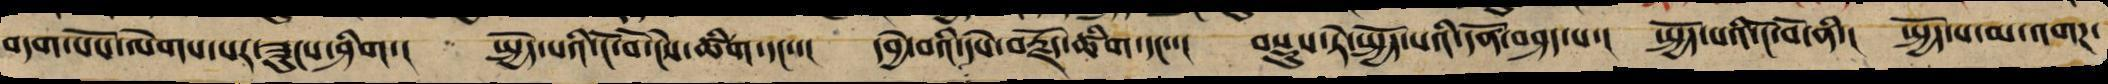བདག་པོ་ལེགས་པར་ཟུངས་ཤིག། སྤྱོད་པའི་ངོ་བོ་ངེས་ཚིག་དང་་། དབྱེ་བ་མཐུན་དཔེ་བརྗོད་ཚིག་དང་་། བསྡུས་ཏེ་བརྗོད་པའི་དོན་བཤད་པ་། སྤྱོད་པའི་ངོ་བོ་ནི་། སྤྱོད་པ་མ་འགཌ་
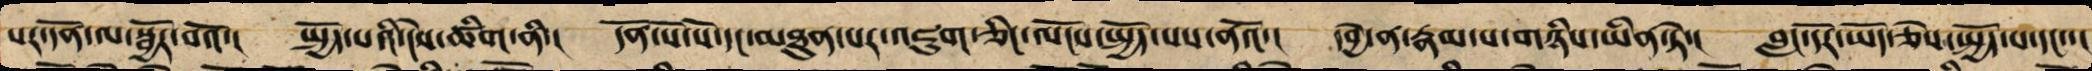སར་དོན་ལ་སྦྱོར་བའོ་། སྤྱོད་པའི་ངེས་ཚིག་ནི་། དོན་སོ་སོ་དང་མཐུན་པར་འཇུག་ཅིང་ལོངས་སྤྱོད་པས་ནའོ་། དབྱེ་ན་རྣམ་པ་གཉིས་ཡིན་ཏེ་། བླང་དོར་ཡོད་ཅེས་སྤྱོད་པ་དང་་།
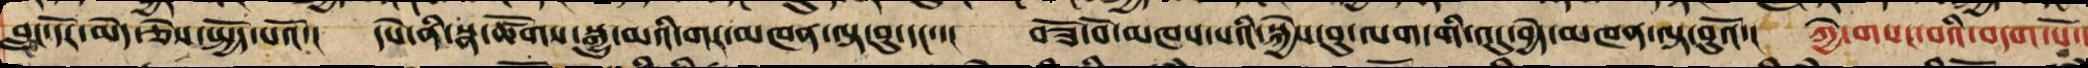བླང་དོར་མེད་ཅེས་སྤྱོད་པའོ་། དཔེ་ནི་སྣ་ཚོགས་སྒྱུ་མའི་གར་མཁན་ལྟ་བུ་དང་་། བཟོ་བོ་མཁས་པའི་སྐྱེས་བུ་ལག་གི་འདུ་བྱེད་མཁན་ལྟ་བུའོ་། ཀྱེ་གསང་བའི་བདག་པོ་།
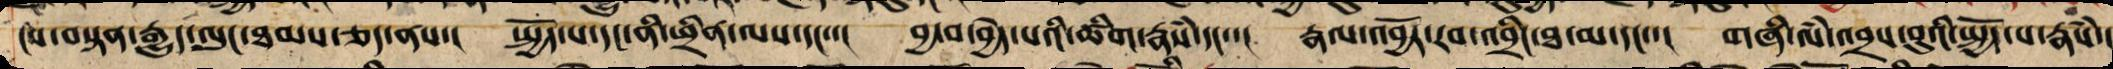ངས་བསྟན་རྒྱུད་ལུང་ཐམས་ཅད་ནས་། སྤྱོད་པ་དང་ནི་ཕྲིན་ལས་དང་་། བྱ་བ་བྱེད་པའི་ཚིག་རྣཾས་དང་་། རྣལ་འབྱོར་རབ་འབྲིང་ཐ་མ་དང་་། གཞི་ལཾ་འབྲས་བུའི་སྤྱོད་པ་རྣཾས་།
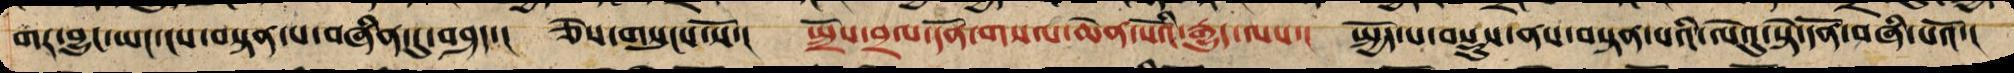གང་བྱུང་ཡང་ངས་བསྟན་པ་བཞིན་དུ་སྤྱོད་། ཅེས་གསུངས་སོ་། སྤྲོས་བྲལ་དོན་གསལ་ཆེན་པོའི་རྒྱུད་ལས་། སྤྱོད་པ་བསྡུས་ནས་བསྟན་པའི་ལེའུ་སྟེ་དོན་བཞི་པའོ་།།
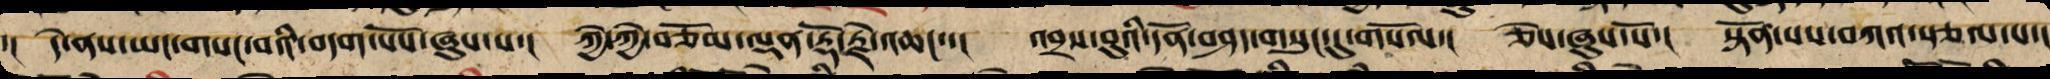་།། དེ་ནས་ཡང་གསང་བའི་བདག་པོས་ཞུས་པ་། ཀྱེ་ཀྱེ་བཅོམ་ལྡན་རྡོ་རྗེ་འཆང་་། འབྲས་བུའི་དོན་བཤད་གསུང་དུ་གསོལ་། ཅེས་ཞུས་སོ་། སྟོན་པས་བཀའ་སྩལ་པ་།
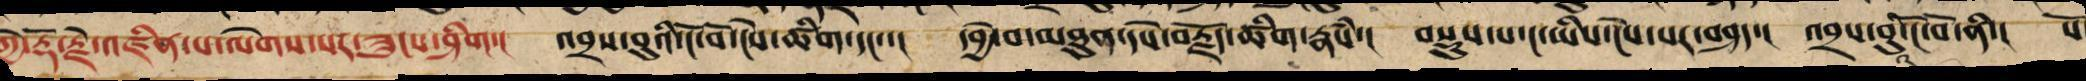ཀྱེ་རྡོ་རྗེ་འཛིན་པ་ལེགས་པར་ཟུངས་ཤིག། འབྲས་བུའི་ངོ་བོ་ངེས་ཚིག་དང་་། དབྱེ་བ་མཐུན་དཔེ་བརྗོད་ཚིག་རྣཾས་། བསྡུས་པ་ང་ཡིས་ངེས་པར་བཤད་། འབྲས་བུ་ངོ་བོ་ནི་། སོ
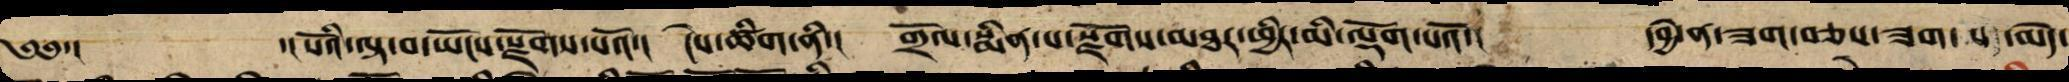༄༅་།  ་།སོའི་ལྟ་བ་ཡོངས་སུ་སྫོགས་པའོ་། ངེས་ཚིག་ནི་། གྲོལ་སྨིན་སྫོགས་མཐར་ཕྱིན་ཕྱིར་མི་ལྡོག་པའོ་། དབྱེ་ན་ཟག་བཅས་ཟག་པ་མེད་
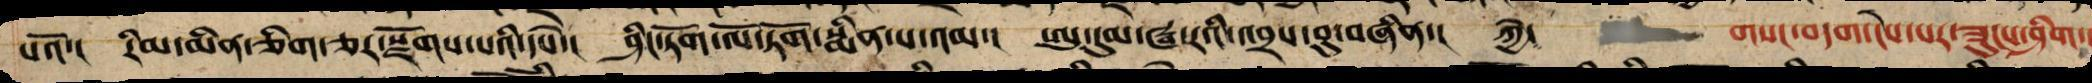པའོ་། རིམ་མིན་གཅིག་ཆར་སྫོགས་པའི་དཔེ་། ཤིང་ཏོག་ལོ་ཏོག་སྨིན་པ་འམ་། ཨུ་དུམ་ཝ་རའི་འབྲས་བུ་བཞིན་། ཀྱེ་   གསང་བདག་ངེས་པར་ཟུང་ཤིག་།
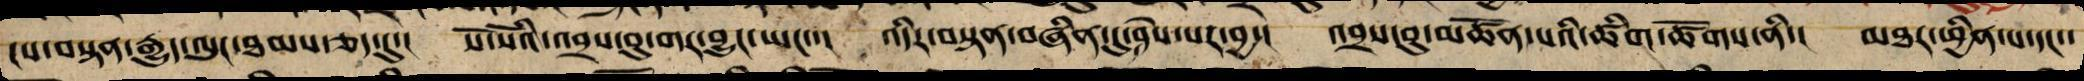ངས་བསྟན་རྒྱུད་ལུང་ཐམས་ཅད་དུ་། སོ་སོའི་འབྲས་བུ་གང་བྱུང་ཡང་་། འདིར་བསྟན་བཞིན་དུ་ཤེས་པར་བྱ་། འབྲས་བུ་མཚོན་པའི་ཚིག་ཚོགས་ནི་། མཐར་ཕྱིན་པ་དང་་
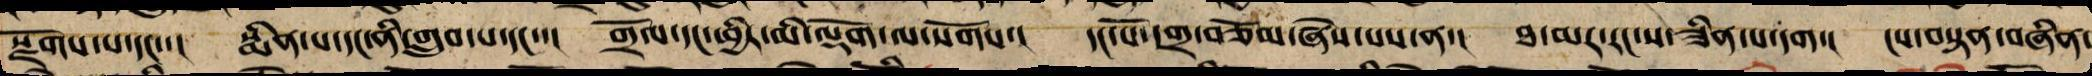སྫོགས་པ་དང་་། སྨིན་པ་དང་ནི་གྲུབ་པ་དང་་། གྲོལ་དང་ཕྱིར་མི་ལྡོག་ལ་སོགས་། དང་པོ་དགྲ་བཅོམ་ཞེས་པ་ནས་། ཐ་མ་རང་ས་ཟིན་པ་དག། ངས་བསྟན་བཞིན་
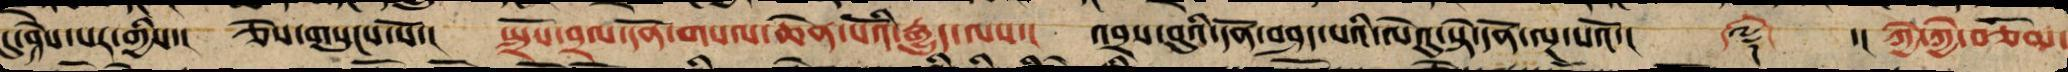དུ་ཤེས་པར་གྱིས་། ཅེས་གསུངས་སོ་། སྤྲོས་བྲལ་དོན་གསལ་ཆེན་པོའི་རྒྱུད་ལས་། འབྲས་བུའི་དོན་བཤད་པའི་ལེའུ་སྟེ་དོན་ལྔ་པའོ་།། ༈ ་།། ཀྱེ་ཀྱེ་བཅོམ་
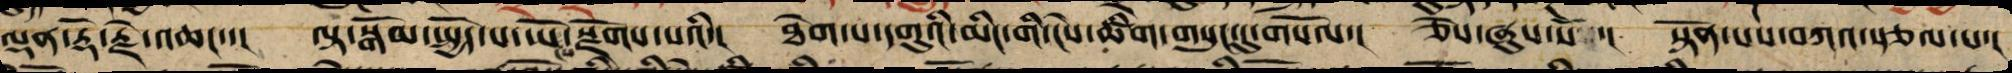ལྡན་རྡོ་རྗེ་འཆང་་། ལྟ་སྒོམ་སྤྱོད་པ་ཡོངས་སྫོགས་པའི་། ཐེག་པ་དགུ་ཡི་མིང་གི་ངེས་ཚིག་གསུང་དུ་གསོལ་། ཅེས་ཞུས་སོ་། སྟོན་པས་བཀའ་སྩལ་པ་།
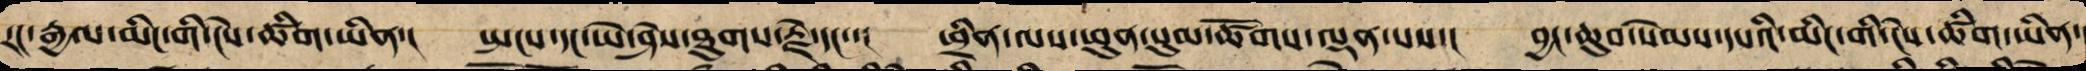རང་རྒྱལ་མིང་གི་ངེས་ཚིག་ཡིན་། སྤངས་དང་ཡེ་ཤེས་ཐུགས་རྗེ་དང་་། ཕྲིན་ལས་ཕུན་སུམ་ཚོགས་ལྡན་པས་། བྱང་ཆུབ་སེམས་དཔའི་མིང་གི་ངེས་ཚིག་ཡིན་
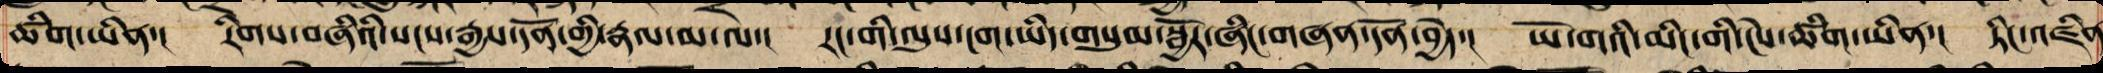ཚིག་ཡིན་། རིགས་བཞིའི་སངས་རྒྱས་དོན་གྱི་རྣལ་མ་ལ་། རང་གི་ལུས་ངག་ཡིད་གསུམ་སྦྱོར་ཞིང་གཞན་དོན་བྱེད་། ཡོ་གའི་མིང་གི་ངེས་ཚིག་ཡིན་། ཏིང་འཛིན
